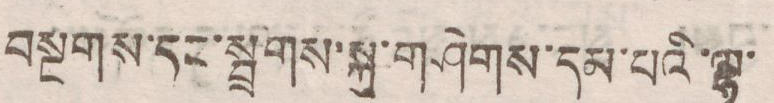བསྔགས་དང་སྦྲགས་སྐུ་གཤེགས་དམ་པའི་ལྷ་
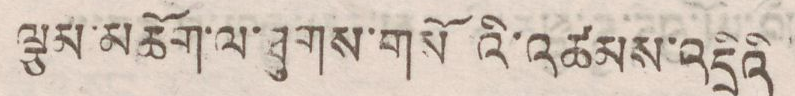ལྕམ་མཆོག་ལ་ཐུགས་གསོའི་མཚམས་འདྲིའི
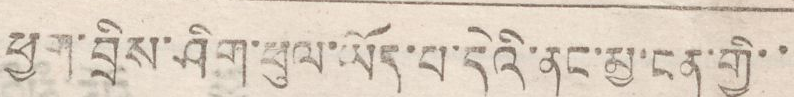ཕྱག་བྲིས་ཤིག་ཕུལ་ཡོད་པ་དེའི་ནང་མྱ་ངན་གྱི་་
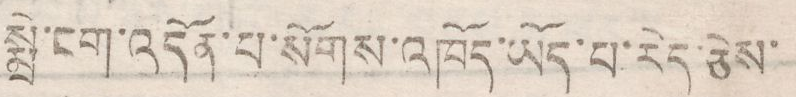སྨྲེ་ངག་འདོན་པ་སོགས་འཁོད་ཡོད་པ་རེད་ཅེས་
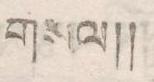གསལ།།
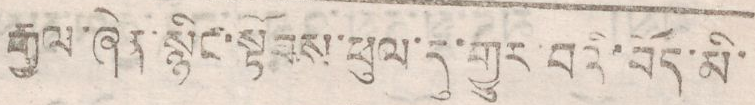རྒྱལ་ཞེན་སྙིང་སྟོབས་ཕུལ་དུ་གྱུར་བའི་བོད་མི་
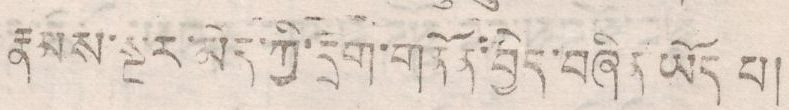རྣམས་སྔར་མེད་ཀྱི་དྲག་གནོན་བྱེད་བཞིན ཡོད པ།
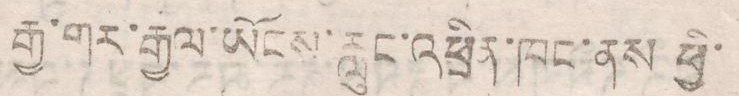རྒྱ་གར་རྒྱལ་ཡོངས་རླུང་འཕྲིན་ཁང་ནས ཕྱི་
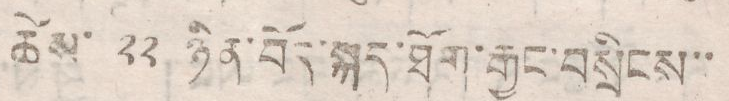ཚེས་ ༢༢ ཉིན་བོད་སྐད་ཐོག་རྒྱང་བསྲིངས་་
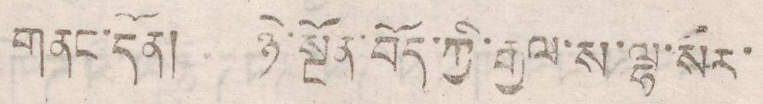གནང་དོན། ཉེ་སྔོན་བོད་ཀྱི་རྒྱལ་ས་ལྷ་སར་
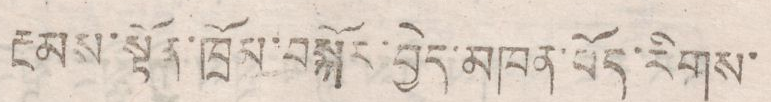རྔམས་སྟོན་ཁྲོམ་བསྐོར་བྱེད་མཁན་བོད་རིགས་
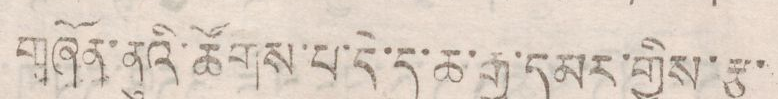གཞོན་ནུའི་ཚོགས་པ་དེ་ད་ཆ་རྒྱ་དམར་གྱིས་རྩ་
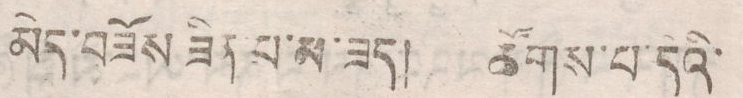མེད་བཟོས ཟིན་པ་མ་ཟད། ཚོགས་པ་དེའི་
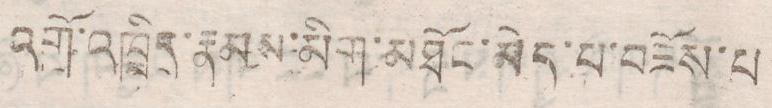འགོ་འཁྲིད་རྣམས་མིག་མཐོང་མེད་པ་བཟོས་པ
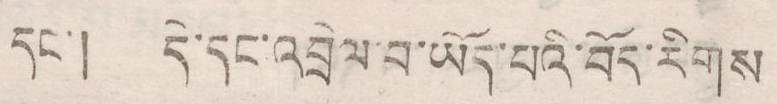དང་། དེ་དང་འབྲེལ་བ་ཡོད་པའི་བོད་རིགས
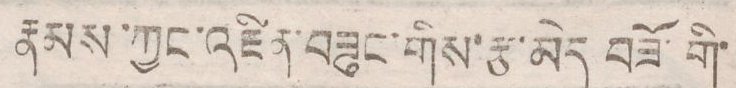རྣམས་ཀྱང་འཛིན་བཟུང་གིས་རྩ་མེད་བཟོ་གི་
